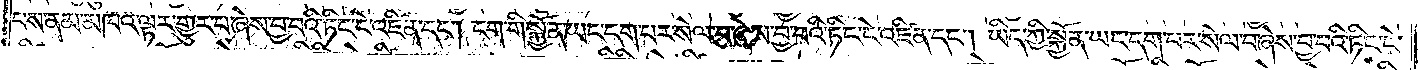པས་ནམ་མཁའ་ལྟར་གྱུར་པ་ཞེས་བྱ་བའི་ཏིང་ངེ་འཛིན་དང༌། ངག་གི་སྐྱོན་ཡང་དག་པར་སེལ་བ་ཞེས་བྱ་བའི་ཏིང་ངེ་འཛིན་དང༌། ཡིད་ཀྱི་སྐྱོན་ཡང་དག་པར་སེལ་བ་ཞེས་བྱ་བའི་ཏིང་ངེ་
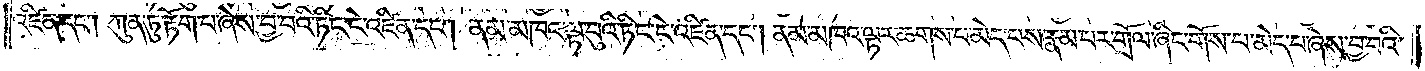འཛིན་དང༌། ཀུན་ཏུ་རྟོག་པ་ཞེས་བྱ་བའི་ཏིང་ངེ་འཛིན་དང༌། ནམ་མཁའ་ལྟ་བུའི་ཏིང་ངེ་འཛིན་དང༌། ནམ་མཁའ་ལྟར་ཆགས་པ་མེད་པས་རྣམ་པར་གྲོལ་ཞིང་གོས་པ་མེད་པ་ཞེས་བྱ་བའི་
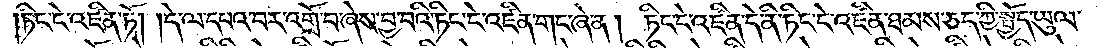ཏིང་ངེ་འཛིན་ཏོ།    །དེ་ལ་དཔའ་བ་འགྲོ་བ་ཞེས་བྱ་བའི་ཏིང་ངེ་འཛིན་གང་ཞེ་ན། ཏིང་ངེ་འཛིན་དེ་ནི་ཏིང་ངེ་འཛིན་ཐམས་ཅད་ཀྱི་སྤྱོད་ཡུལ་
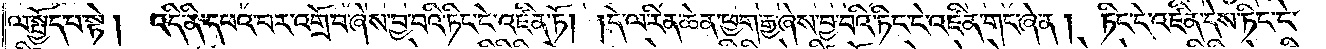ལ་སྤྱོད་པ་སྟེ ། འདི་ནི་དཔའ་བར་འགྲོ་བ་ཞེས་བྱ་བའི་ཏིང་ངེ་འཛིན་ཏོ། །དེ་ལ་རིན་ཆེན་ཕྱག་རྒྱ་ཞེས་བྱ་བའི་ཏིང་ངེ་འཛིན་གང་ཞེ་ན། །ཏིང་ངེ་འཛིན་དེས་ཏིང་ངེ་
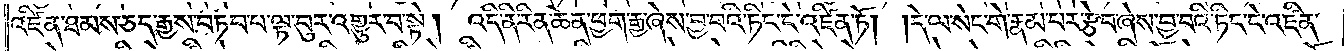འཛིན་ཐམས་ཅད་རྒྱས་བཏབ་པ་ལྟ་བུར་འགྱུར་བ་སྟེ། འདི་ནི་རིན་ཆེན་ཕྱག་རྒྱ་ཞེས་བྱ་བའི་ཏིང་ངེ་འཛིན་ཏོ། །དེ་ལ་སེང་གེ་རྣམ་པར་རྩེ་བ་ཞེས་བྱ་བའི་ཏིང་ངེ་འཛིན་
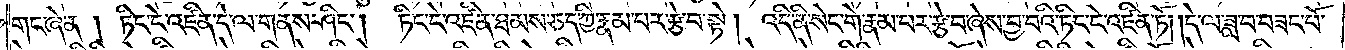གང་ཞེ་ན ། ཏིང་ངེ་འཛིན་དེ་ལ་གནས་ཤིང༌། ཏིང་ངེ་འཛིན་ཐམས་ཅད་ཀྱི་རྣམ་པར་རྩེ་བ་སྟེ། འདི་ནི་སེང་གེ་རྣམ་པར་རྩེ་བ་ཞེས་བྱ་བའི་ཏིང་ངེ་འཛིན་ཏོ། །དེ་ལ་ཟླ་བ་བཟང་པོ་
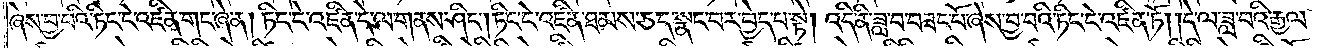ཞེས་བྱ་བའི་ཏིང་ངེ་འཛིན་གང་ཞེ་ན། ཏིང་ངེ་འཛིན་དེ་ལ་གནས་ཤིང༌། ཏིང་ངེ་འཛིན་ཐམས་ཅད་སྣང་བར་བྱེད་པ་སྟེ། འདི་ནི་ཟླ་བ་བཟང་པོ་ཞེས་བྱ་བའི་ཏིང་ངེ་འཛིན་ཏོ། །དེ་ལ་ཟླ་བའི་རྒྱལ་
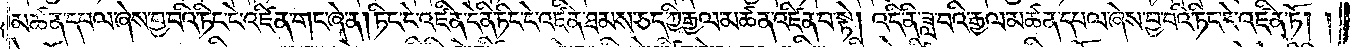མཚན་དཔལ་ཞེས་བྱ་བའི་ཏིང་ངེ་འཛིན་གང་ཞེ་ན། ཏིང་ངེ་འཛིན་དེ་ནི་ཏིང་ངེ་འཛིན་ཐམས་ཅད་ཀྱི་རྒྱལ་མཚན་འཛིན་པ་སྟེ། འདི་ནི་ཟླ་བའི་རྒྱལ་མཚན་དཔལ་ཞེས་བྱ་བའི་ཏིང་ངེ་འཛིན་ཏོ། །
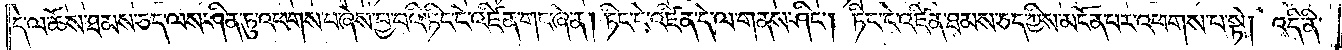དེ་ལ་ཆོས་ཐམས་ཅད་ལས་ཤིན་ཏུ་འཕགས་པ་ཞེས་བྱ་བའི་ཏིང་ངེ་འཛིན་གང་ཞེ་ན། ཏིང་ངེ་འཛིན་དེ་ལ་གནས་ཤིང༌། ཏིང་ངེ་འཛིན་ཐམས་ཅད་ཀྱིས་མངོན་པར་འཕགས་པ་སྟེ། འདི་ནི་
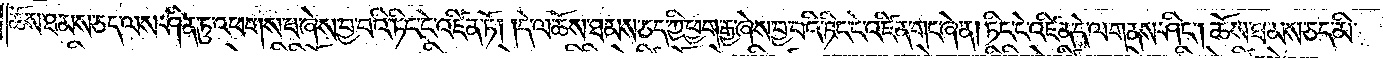ཆོས་ཐམས་ཅད་ལས་ཤིན་ཏུ་འཕགས་པ་ཞེས་བྱ་བའི་ཏིང་ངེ་འཛིན་ཏོ། །དེ་ལ་ཆོས་ཐམས་ཅད་ཀྱི་ཕྱག་རྒྱ་ཞེས་བྱ་བའི་ཏིང་ངེ་འཛིན་གང་ཞེ་ན། ཏིང་ངེ་འཛིན་དེ་ལ་གནས་ཤིང༌། ཆོས་ཐམས་ཅད་མི་
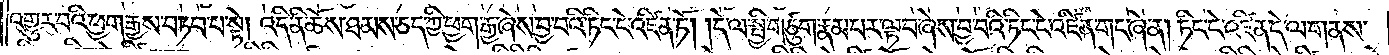འགྱུར་བའི་ཕྱག་རྒྱས་བཏབ་པ་སྟེ། འདི་ནི་ཆོས་ཐམས་ཅད་ཀྱི་ཕྱག་རྒྱ་ཞེས་བྱ་བའི་ཏིང་ངེ་འཛིན་ཏོ། །དེ་ལ་སྤྱི་གཙུག་རྣམ་པར་ལྟ་བ་ཞེས་བྱ་བའི་ཏིང་ངེ་འཛིན་གང་ཞེ་ན། ཏིང་ངེ་འཛིན་དེ་ལ་གནས་
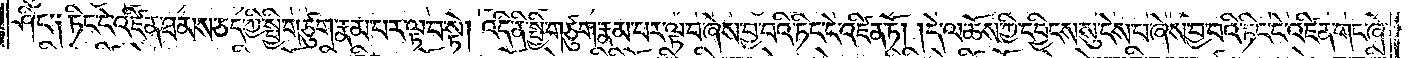ཤིང༌༑ ཏིང་ངེ་འཛིན་ཐམས་ཅད་ཀྱི་སྤྱི་གཙུག་རྣམ་པར་ལྟ་བ་སྟེ། འདི་ནི་སྤྱི་གཙུག་རྣམ་པར་ལྟ་བ་ཞེས་བྱ་བའི་ཏིང་ངེ་འཛིན་ནོ། །དེ་ལ་ཆོས་ཀྱི་དབྱིངས་སུ་ངེས་པ་ཞེས་བྱ་བའི་ཏིང་ངེ་འཛིན་གང་ཞེ་
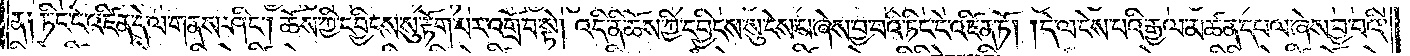ན༑ ཏིང་ངེ་འཛིན་དེ་ལ་གནས་ཤིང༌། ཆོས་ཀྱི་དབྱིངས་སུ་རྟོག་པར་འགྲོ་བ་སྟེ། འདི་ནི་ཆོས་ཀྱི་དབྱིངས་སུ་ངེས་པ་ཞེས་བྱ་བའི་ཏིང་ངེ་འཛིན་ཏོ། །དེ་ལ་ངེས་པའི་རྒྱལ་མཚན་དཔལ་ཞེས་བྱ་བའི་
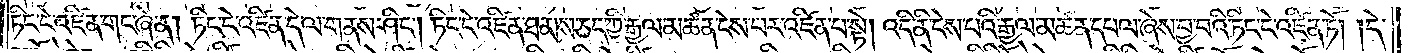ཏིང་ངེ་འཛིན་གང་ཞེ་ན། ཏིང་ངེ་འཛིན་དེ་ལ་གནས་ཤིང༌། ཏིང་ངེ་འཛིན་ཐམས་ཅད་ཀྱི་རྒྱལ་མཚན་ངེས་པར་འཛིན་པ་སྟེ། འདི་ནི་ངེས་པའི་རྒྱལ་མཚན་དཔལ་ཞེས་བྱ་བའི་ཏིང་ངེ་འཛིན་ཏོ། །དེ་
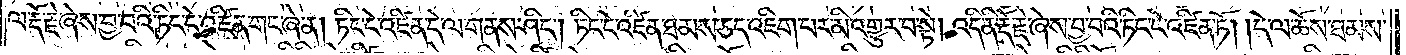ལ་རྡོ་རྗེ་ཞེས་བྱ་བའི་ཏིང་ངེ་འཛིན་གང་ཞེ་ན། ཏིང་ངེ་འཛིན་དེ་ལ་གནས་ཤིང༌། ཏིང་ངེ་འཛིན་ཐམས་ཅད་འཇིག་པར་མི་འགྱུར་བ་སྟེ། འདི་ནི་རྡོ་རྗེ་ཞེས་བྱ་བའི་ཏིང་ངེ་འཛིན་ཏོ། །དེ་ལ་ཆོས་ཐམས་
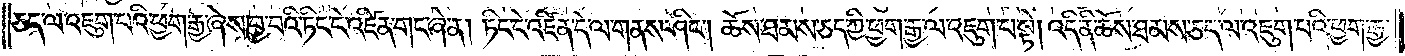ཅད་ལ་འཇུག་པའི་ཕྱག་རྒྱ་ཞེས་བྱ་བའི་ཏིང་ངེ་འཛིན་གང་ཞེ་ན། ཏིང་ངེ་འཛིན་དེ་ལ་གནས་ཤིང༌། ཆོས་ཐམས་ཅད་ཀྱི་ཕྱག་རྒྱ་ལ་འཇུག་པ་སྟེ། འདི་ནི་ཆོས་ཐམས་ཅད་ལ་འཇུག་པའི་ཕྱག་རྒྱ་
